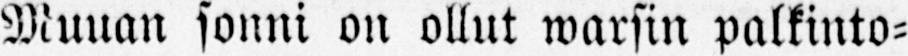Muuan sonni on ollut warsin palkinto-
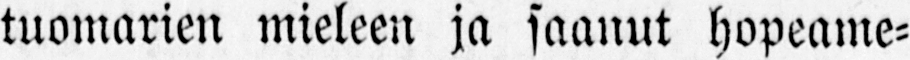tuomarien mieleen ja saanut hopeame-
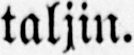taljin.
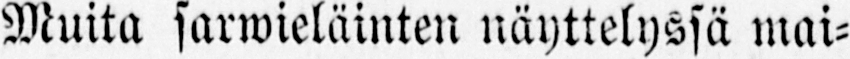Muita sarwieläinten näyttelyssä mai-
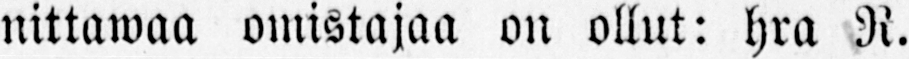nittawaa omistajaa on ollut: hra N.
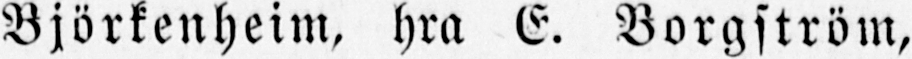Björkenheim, hra E. Borgström,
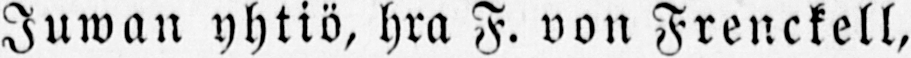Juwan yhtiö, hra F. von Frenckell,
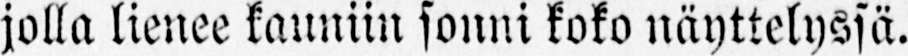jolla lienee kauniin sonni koko näyttelyssä.
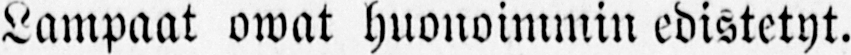Lampaat owat huonoimmin edistetyt.
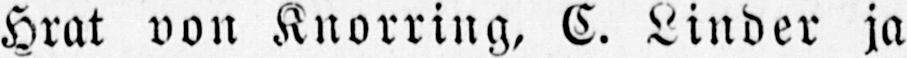Hrat von Knorring, C. Linder ja
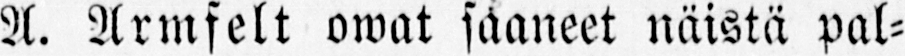A. Armfelt owat saaneet näistä pal-
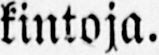kintoja.
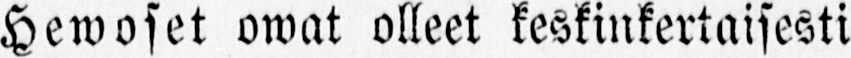Hewoset owat olleet keskinkertaisesti
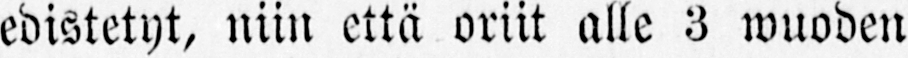edistetyt, niin että oriit alle 3 wuoden
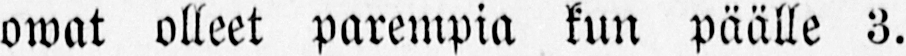owat olleet parempia kun päälle 3.
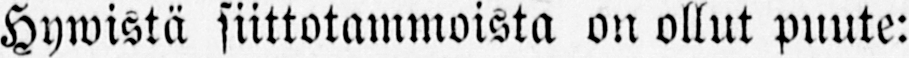Hywistä siittotammoista on ollut puute:
